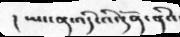།  ཡང་ན་འདི་འི་དོན་ནིའ་
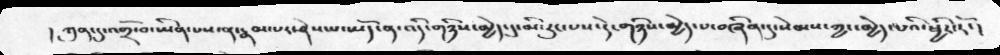། ཀུན་དུ་འགྲོ་བ་ཡིན་པས་ན་རྣམ་པར་ཤེས་པ་ཡོད་ན་འདི་གཉིས་མྱེད་དུ་མི་རུང་པས་དེ་གཉིས་མྱེད་པ་བཞིན་དུ་སེམས་ཀྱང་མྱེད་པའི་ཕྱིར་རོ་།
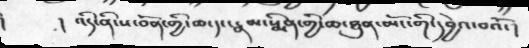།    ། འདི་ནི་ས་བོན་གྱི་ཆ་དང་རྣམ་སྨིན་གྱི་ཆ་ཐུན་མོང་གི་དབྱེའ་བའོ་།
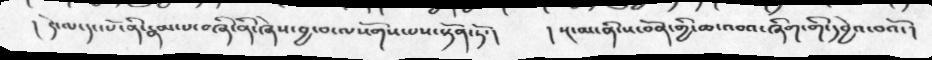།དེ་ལ་དང་པོ་ནི་རྣམ་པ་བཞི་ནི་ཞེས་བྱ་བ་ལསོགས་པས་སྟོན་ཏོ་།   ། སྔ་མ་ནི་ས་བོན་གྱི་ཆ་འབའ་ཞིག་གི་དབྱེའ་བའོ་།
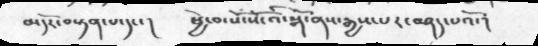མདོར་བསྟན་པ་དང་།  ཕྱེ་བ་སོ་སོ་འི་སྒོ་ནས་རྒྱས་པར་བཤད་པའོ་།
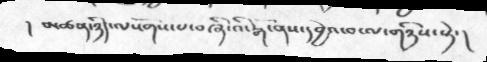། མཚན་ཉིད་ལསོགས་པ་བཞི་འི་སྒོ་ནས་དབྱེའ་བ་ལ་གཉིས་སྟེ་།
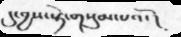དུ་བྱས་སྟེ་གསུམ་པའོ་།
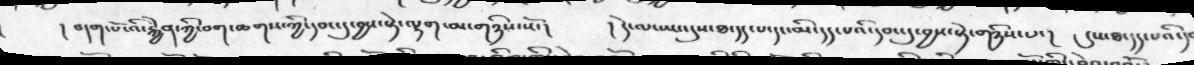། བདག་པོ་འི་རྐྱེན་ཀྱི་བག་ཆགས་ཀྱི་དབང་དུ་བྱས་སྟེ་ལྷག་མ་གཉིས་སོ་།   །དེ་ལ་ཡང་དུས་ཐ་དད་པ་དང་མི་དད་པའི་དབང་དུ་བྱས་སྟེ་གཉིས་པ་།  དུས་ཐ་དད་པའི་ད
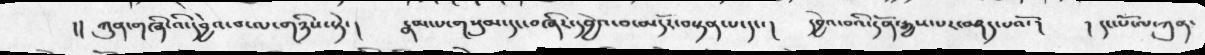།། ཀུན་གཞི་འི་དབྱེའ་བ་ལ་གཉིས་སྟེ་།   རྣམ་པ་གསུམ་དང་བཞིར་དབྱེའ་བ་མདོར་བསྟན་པ་དང་།  དབྱེའ་བའི་དོན་རྒྱས་པར་བཤད་པའོ་།   ། དང་པོ་ལ་ཀུན་
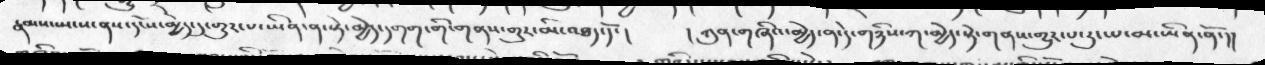རྣམས་སྤངས་ནས་དངོས་མྱེད་དུ་གྱུར་པ་ཡིན་ན་སྟེ་མྱེད་དགག་གི་གནས་གྱུར་མི་འཐད་དོ་།      ། ཀུན་གཞིའ་མྱེད་ན་དེ་གཉིས་ཀ་མྱེད་སྟེ་གནས་གྱུར་པ་རུང་པ་མ་ཡིན་ནོ་།།
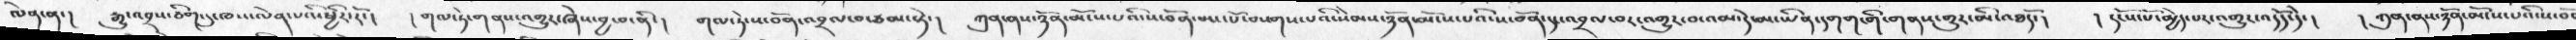ལེན་ན་།  རྒྱུ་འབྲས་ཅིག་དུ་ཁས་ལེན་པའི་ཕྱིར་རོ་།   །གལ་ཏེ་གནས་འགྱུར་ཞེས་བྱ་བ་ནི་།  གལ་ཏེ་ས་བོན་འབྲལ་བ་རྩམ་སྟེ་།  ཀུན་ནས་ཉོན་མོངས་པའི་ས་བོན་མང་པོ་བསག་པའི་སེམས་ཉོན་མོངས་པའི་ས་བོན་དང་འབྲལ་བར་འགྱུར་བ་འམ་དེ་མ་ཡིན་དགག་གི་གནས་གྱུར་མི་འཐདོ་།  །དངོས་པོ་མྱེད་པར་འགྱུར་འདོད་དེ་།  །ཀུན་ནས་ཉོན་མོངས་པའི་ས་བོ
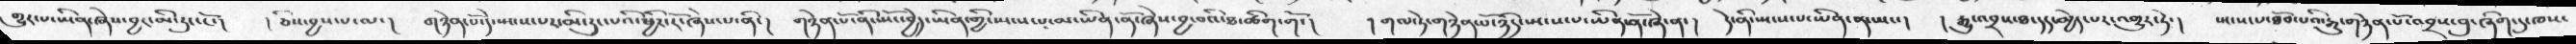གྱུར་པ་ཡིན་ཞེས་བྱར་མི་རུང་ངོ་།  །ཅིས་བྱས་པ་ལ་།  གཉེན་པོ་སྤངས་པར་མི་རུང་པའི་ཕྱིར་རོ་ཞེས་པ་ནི་།  གཉེན་པོ་ནི་སྤོང་བྱེད་ཡིན་གྱི་སྤངས་པ་མ་ཡིན་ནོ་ཞེས་བྱ་བའི་ཐ་ཚིག་གོ་།  །གལ་ཏེ་གཉེན་པོ་ཉིད་སྤངས་པ་ཡིན་ནོ་ཞེ་ན་།  དེ་ནི་སྤངས་པ་ཡིན་ན་སྤང་།  །རྒྱུ་འབྲས་ཐ་དད་མྱེད་པར་འགྱུར་ཏེ་།   སྤངས་པ་ཐོབ་པའི་རྒྱུ་གཉེན་པོ་འབྲས་བུ་ཞིག་དུ་ཁས་
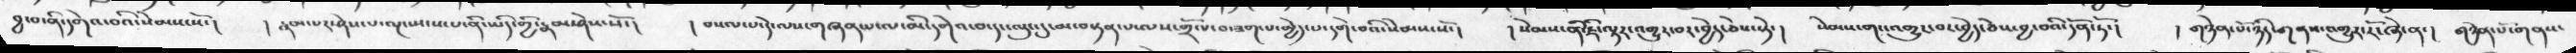བྱ་བ་ནི་དགེའ་བའི་སེམས་སོ་།  །རྣམ་པར་ཤེས་པ་ལྔ་སྤངས་པ་ནི་ཡིད་གྱི་རྣམ་ཤེས་སོ་།  །བསལ་པ་དེ་ལས་གཞན་པ་ལ་མི་དགེའ་བ་དང་ལུང་དུ་མ་བསྟན་པ་ལས་གྲོལ་བ་ཟག་པ་མྱེད་པ་དགེ་བའི་སེམས་སོ་།   །སེམས་ནི་ཇི་ལྟར་འགྱུར་བར་བྱེད་ཅེས་སྟེ་།  སེམས་གང་འགྱུར་བར་བྱེད་ཅེས་བྱ་བའི་དོན་ཏོ་།  །གཉེན་པོ་ཉིད་གནས་འགྱུར་རོ་ཞེ་ན་།  གཉེན་པོ་གནས་
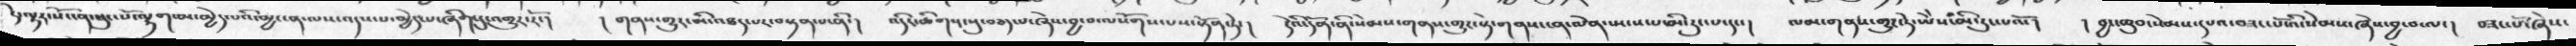དེ་ལྟར་སོང་ན་ཕུང་པོ་ལྷག་མ་མྱེད་པའི་མྱ་ངན་ལས་འདས་པ་མྱེད་པ་ཞིག་དུ་འགྱུར་རོ་།   །གནས་གྱུར་མི་འཐད་པར་བསྟན་པ་ནི་།   འདིར་ཚིགས་སུ་བཅད་པ་ཞེས་བྱ་བ་ལསོགས་པས་སྟོན་ཏེ་།  དེའི་དོན་ནི་སེམས་གནས་གྱུར་སྟེ་གནས་ན་ལེན་སྤངས་པ་མི་རུང་པ་དང་།  ལམ་གནས་གྱུར་ཏེ་ཡཻས་མི་རུང་པའོ་།  །བྱང་ཆུབ་སེམས་དཔའ་བཟང་པོ་འི་སེམས་ཞེས་བྱ་བ་ལ་།  བཟང་པོ་ཞེས་
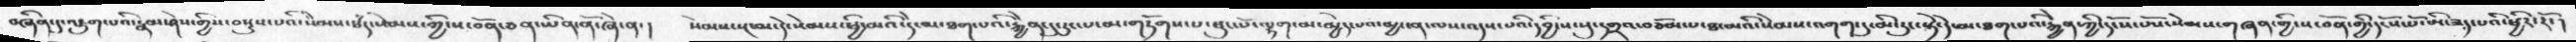བཞིན་དུ་འཇུག་པའི་རྣམ་ཤེས་གྱིས་བསྡུས་པའི་སེམས་ཐཾད་སེམས་ཀྱི་ས་བོན་ཅན་་ཡིན་ནོ་ཞེ་ན་།   སེམས་སྔ་མ་དེ་སེམས་ཕྱི་མའི་དེ་མ་ཐག་པའི་རྐྱེན་དུ་རུང་པ་མ་གཏོགས་པ་ཕུང་པོ་ལྷག་མ་མྱེད་པའ་མྱ་ངན་ལས་འདས་པའི་དབྱིངས་སུ་དགྲའ་བཅོམ་པ་ཐ་མའི་སེམས་འགག་དུ་མི་རུང་སྟེ་དེ་མ་ཐག་པའི་རྐྱེན་ཀྱི་དངོས་པོ་སེམས་གཞན་གྱི་ས་བོན་གྱི་དངོས་པོ་མི་ཟད་པའི་ཕྱིར་རོ་།
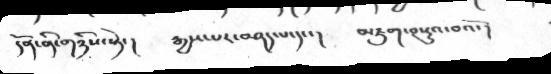དོན་ནི་གཉིས་སྟེ་།   རྒྱས་པར་བཤད་པ་དང་།   མཇུག་བསྡུའ་བའོ་།
